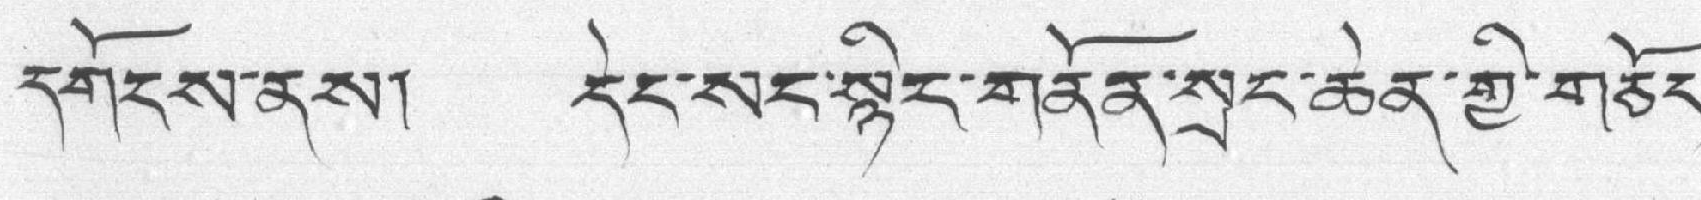དགོངས་ནས། དེང་སང་སྙིང་གནོན་སྲང་ཆེན་གྱི་གཅོད་
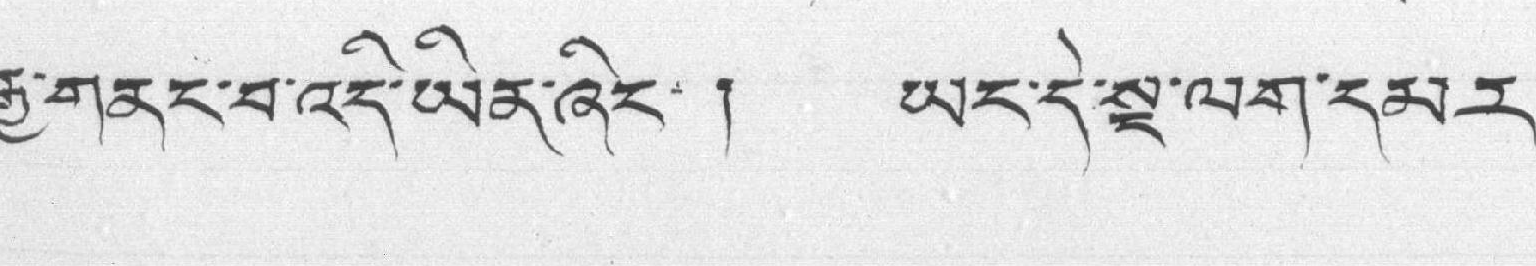རྒྱ་གནང་བ་འདི་ཡིན་ཞིང་ ། ཡང་དེ་སྔ་ལག་དམར་
